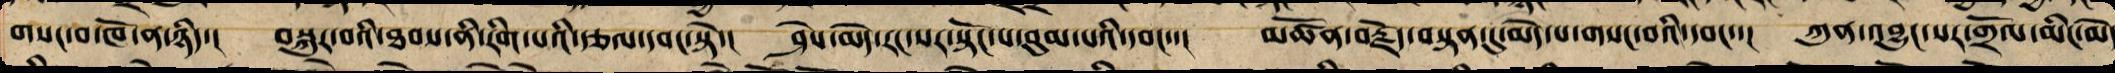གསང་བ་ཁོ་ན་ཉིད་། བསྐུར་བའི་ཐབས་ནི་རིག་པའི་རྩལ་དབང་སྟེ་། ཤེས་མེད་རང་སར་སྟོང་པ་བུམ་བའི་དབང་་། མཚོན་བརྗོད་བསྟན་དུ་མེད་པ་གསང་བའི་དབང་་། ཀུན་འབྱུང་རང་སར་གྲོལ་བ་མིང་མེ
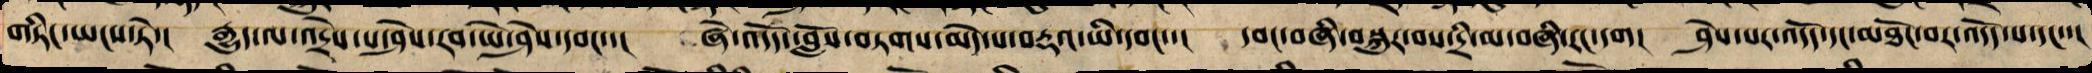གཏིང་ཡངས་ཏེ་། རྒྱུད་ལ་འདྲེས་པ་ཤེས་རབ་ཡེ་ཤེས་དབང་་། ཞེ་འདོད་བློ་བཏགས་མེད་པ་བརྡའ་ཡི་དབང་་། དབང་བཞི་བསྐུར་བས་དྲི་མ་བཞི་རང་དག། ཤེས་པར་འདོད་དང་མཐོང་བར་འདོད་པ་དང་་།
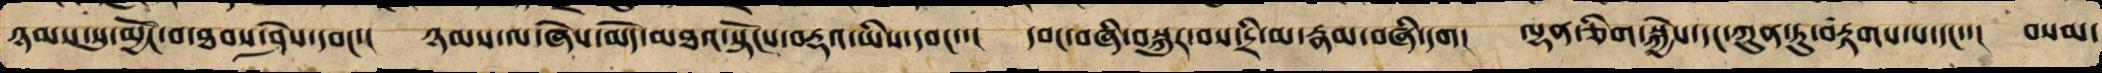ཉམས་སུ་མྱོང་བ་ཐབས་ཤེས་དབང་་། ཉམས་ལ་ཞེན་མེད་མཐའ་སྟོངས་བརྡའ་ཡི་དབང་་། དབང་བཞི་བསྐུར་བས་དྲི་མ་རྣམ་བཞི་དང་་། ལྷན་ཅིག་སྐྱེས་དང་ཀུན་ཏུ་བརྟགས་པ་དང་་། བསམ་
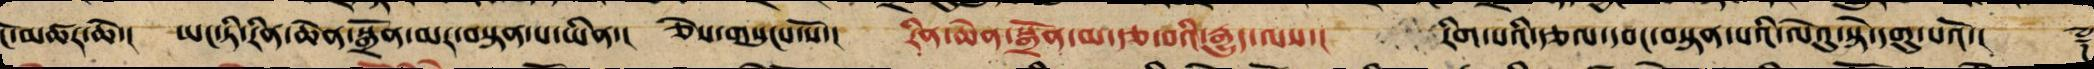ངོ་མཚར་ཆེ་། ཡང་ཏི་རིན་ཆེན་སྒྲོན་མར་བསྟན་པ་ཡིན་། ཅེས་གསུངས་སོ་། རིན་ཆེན་སྒྲོན་མ་རྩ་བའི་རྒྱུད་ལས་། རིག་པའི་རྩལ་དབང་བསྟན་པའི་ལེའུ་སྟེ་དགུ་པའོ་།། ༈
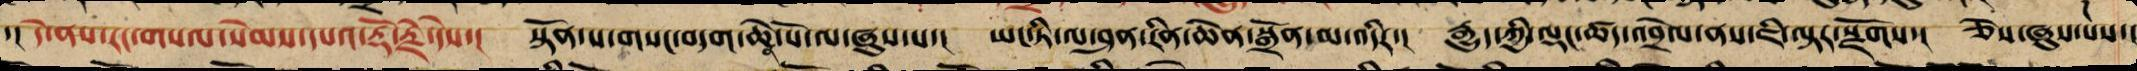་།། དེ་ནས་རང་གསལ་སེམས་དཔའ་རྡོ་རྗེ་དེས་། སྟོན་པ་གསང་བདག་ཆེན་པོ་ལ་ཞུས་པ་། ཡང་ཏི་ལ་ཤན་རིན་ཆེན་སྒྲོན་མ་འདིར་། རྒྱུད་ཀྱི་ལྡང་ཚད་འབྲེལ་ནས་ཇི་ལྟར་སྫོགས་། ཅེས་ཞུས་པས་།
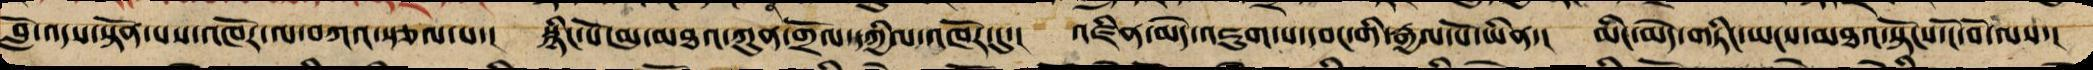བློ་འདས་སྟོན་པས་འཁོར་ལ་བཀའ་སྩལ་པ་། སྙིང་པོ་མུ་མཐའ་ཀུན་གྲོལ་དཀྱིལ་འཁོར་དུ་། འཛིན་མེད་འཇུག་པ་དབང་གི་རྒྱལ་པོ་ཡིན་། མིང་མེད་གཏིང་ཡངས་མཐའ་སྟོངས་ངོ་བོ་ལས་།
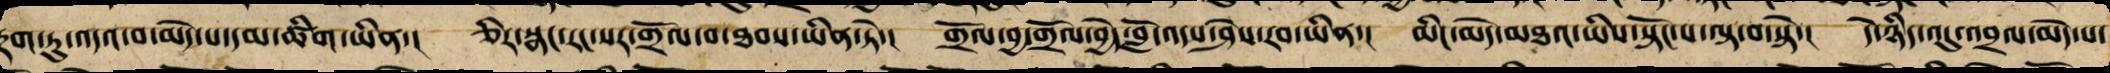རྟག་ཏུ་འདའ་བ་མེད་པ་དམ་ཚིག་ཡིན་། ཅིར་སྣང་རང་སར་གྲོལ་བ་ཐབས་ཡིན་ཏེ་། གྲོལ་བྱ་གྲོལ་བྱེད་བློ་འདས་ཤེས་རབ་ཡིན་། མིང་མེད་མཐའ་ཡིས་སྟོངས་པ་ལྟ་བ་སྟེ་། དེ་ཉིད་འདུ་འབྲལ་མེད་པ་
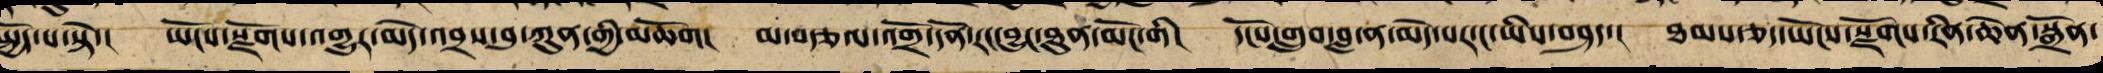སྤྱོད་པ་སྟེ་། ཡོངས་སྫོགས་འགྱུར་མེད་འབྲས་བུ་ཀུན་གྱི་མཆོག། མ་བབརྩལ་འགྲོ་དོན་རང་བྱུང་ཐུན་མོང་གི་། དངོས་གྲུབ་བླ་ན་མེད་པར་ང་ཡིས་བཤད་། ཐམས་ཅད་ཡོངས་སྫོགས་རིན་ཆེན་སྒྲོན་
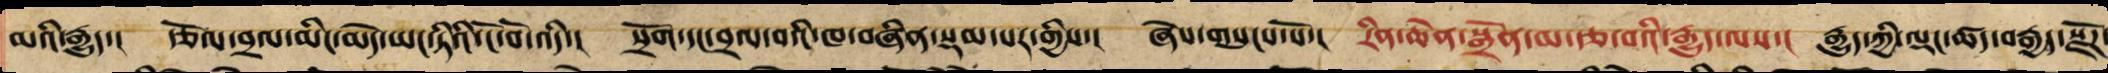མའི་རྒྱུད་། རྩོལ་བྲལ་མིང་མེད་ཡང་ཏིའི་ངོ་བོ་འདི་། སྲོག་དང་བྲལ་བའི་ཁ་བཞིན་སྡམ་པར་གྱིས་། ཞེས་གསུངས་སོ་། རིན་ཆེན་སྒྲོན་མ་རྩ་བའི་རྒྱུད་ལས་། རྒྱུད་ཀྱི་ལྡང་ཚད་བརྒྱད་རྫོཌ་
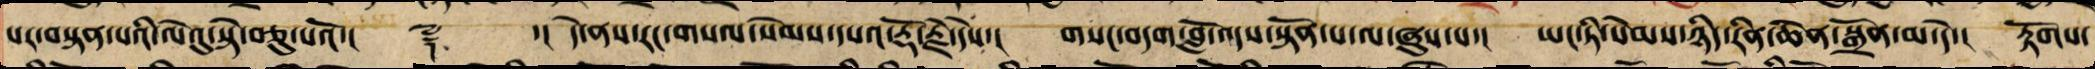པར་བསྟན་པའི་ལེའུ་སྟེ་བཅུ་པའོ་།། ༈ ་།། དེ་ནས་རང་གསལ་སེམས་དཔའ་རྡོ་རྗེ་དེས་། གསང་བདག་བློ་འདས་སྟོན་པ་ལ་ཞུས་པ་། ཡང་ཏི་སེམས་ཉིད་རིན་ཆེན་སྒྲོན་མ་འདི་། རྟོགས་
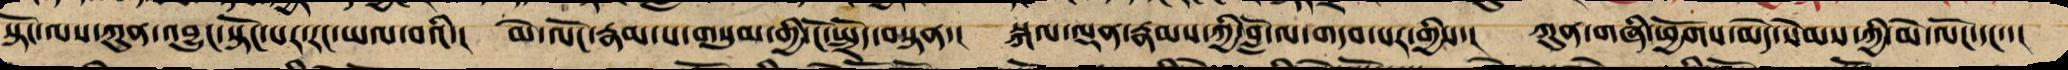སྟོང་ལས་ཀུན་འབྱུང་སྟོང་པར་རང་ཡལ་བའི་། མེ་ལོང་རྣམ་པ་གསུམ་གྱི་ངོ་སྤྲོད་བསྟན་། སྐལ་ལྡན་རྣམས་ཀྱི་བློ་ལ་གདབ་པར་གྱིས་། ཀུན་གཞི་ཕྱོགས་མེད་སེམས་ཀྱི་མེ་ལོང་དང་་།
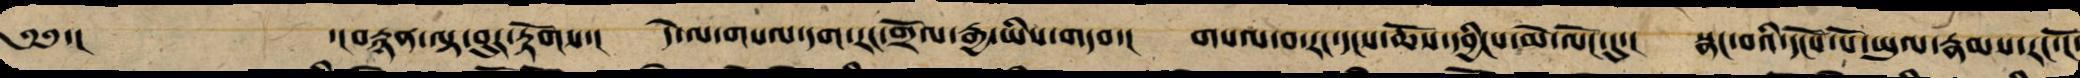༄༅་། ་།བརྙན་ལྟ་བུར་རྟོགས་། དེ་ལ་གསལ་དག་རང་གྲོལ་རྒྱ་ཡིས་གདབ་། གསལ་བ་རང་དངས་ཆོས་དབྱིངས་མེ་ལོང་དུ་། སྣང་བའི་དངོས་པོ་ཡུལ་རྣམས་རང་ངོ་
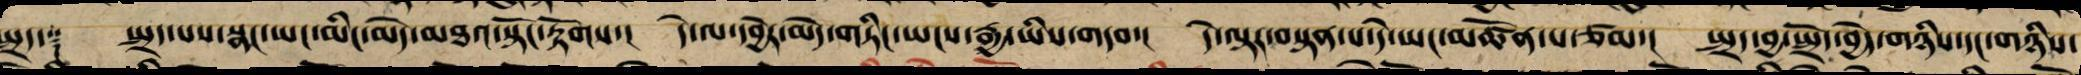སྤྲད་༑ སྤྲད་པས་སྣང་ཡང་མིང་མེད་མཐའ་སྟོང་རྟོགས་། དེ་ལ་དབྱེར་མེད་གཏིང་ཡངས་རྒྱ་ཡིས་གདབ་། དེ་ལྟར་བསྟན་པ་དེ་ཡང་མཚོན་པ་ཙམ་། སྤྲད་བྱ་སྤྲོད་བྱེད་གཉིས་དང་གཉིས་
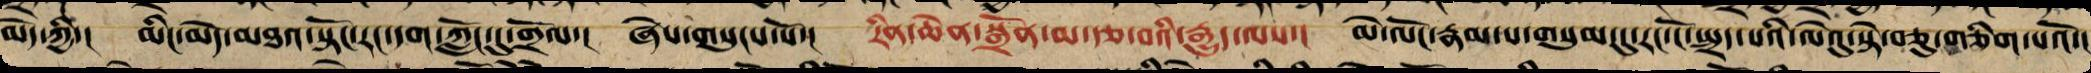མེད་ཀྱིས་། མིང་མེད་མཐའ་སྟོང་རང་དག་ཀློང་དུ་གྲོལ་། ཞེས་གསུངས་སོ་། རིན་ཆེན་སྒྲོན་མ་རྩ་བའི་རྒྱུད་ལས་། མེ་ལོང་རྣམ་པ་གསུམ་དུ་རང་ངོ་སྤྲད་པའི་ལེའུ་སྟེ་བཅུ་གཅིག་པའོ་།།
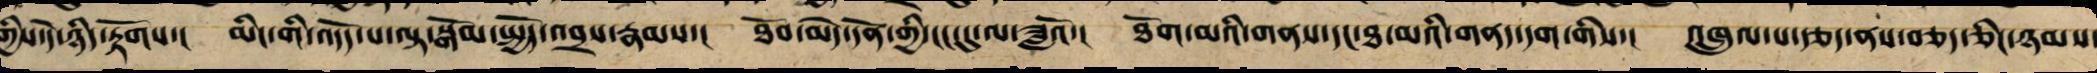གྱིས་དེ་ཉིད་རྟོགས་། མིང་གི་འདོད་པ་ལྟ་སྒོམ་སྤྱོད་འབྲས་རྣམས་། ཐོབ་མེད་དོན་གྱི་ངང་དུ་ལ་ཟླའོ་། ཐོག་མའི་གནས་དང་ཐ་མའི་གནད་དག་གིས་། འཁྲུལ་པ་རྩད་ནས་བཅད་ཅིང་ཉམས་
